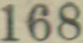168
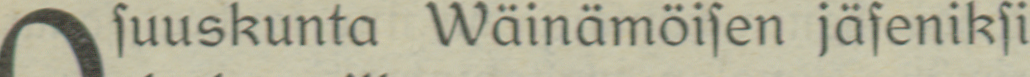Osuuskunta Wäinämöisen jäfeniksi
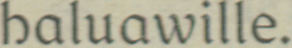haluawille.
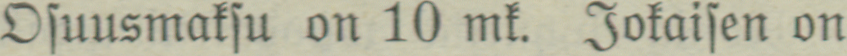Osuusmaksu on 10 mk. Jokaisen on
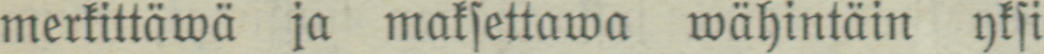merkittäwä ja maksettawa wähintäin yksi
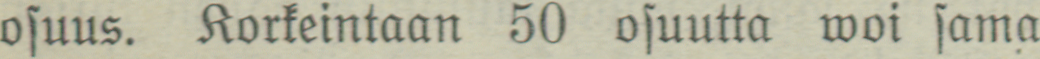osuus. Korkeintaan 50 osuutta woi sama
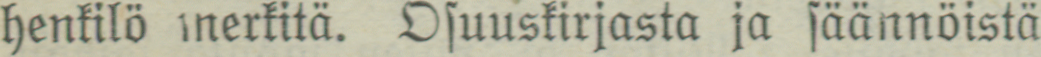henkilö merkitä. Osuuskirjasta ja säännöistä
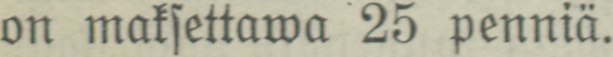on maksettawa 25 penniä.
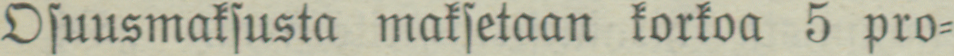Osuusmaksusta maksetaan korkoa 5 pro-
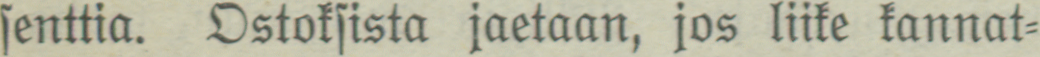senttia. Ostoksista jaetaan, jos liike kannat-
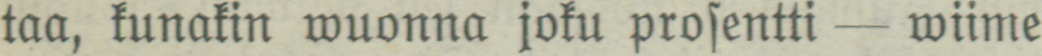taa, kunakin wuonna joku prosentti — wiime
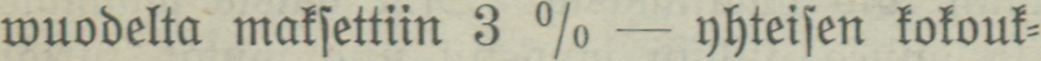wuodelta maksettiin 3 %, — yhteisen kokouk-
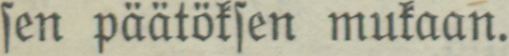sen päätöksen mukaan.
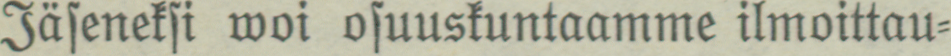Jäseneksi woi osuuskuntaamme ilmoittau-
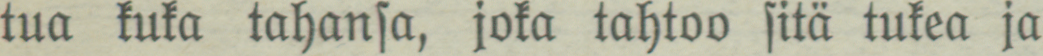tua kuka tahansa, joka tahtoo sitä tukea ja
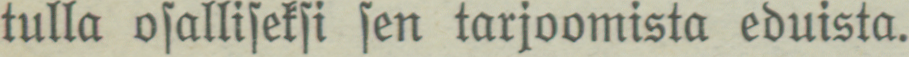tulla osalliseksi sen tarjoamista eduista.
